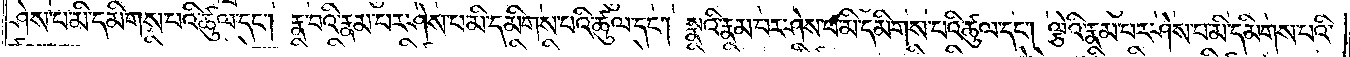ཤེས་པ་མི་དམིགས་པའི་ཚུལ་དང༌། རྣ་བའི་རྣམ་པར་ཤེས་པ་མི་དམིགས་པའི་ཚུལ་དང༌། སྣའི་རྣམ་པར་ཤེས་པ་མི་དམིགས་པའི་ཚུལ་དང༌། ལྕེའི་རྣམ་པར་ཤེས་པ་མི་དམིགས་པའི་
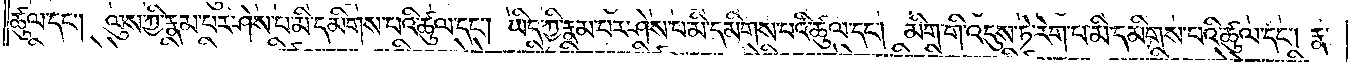ཚུལ་དང༌། ལུས་ཀྱི་རྣམ་པར་ཤེས་པ་མི་དམིགས་པའི་ཚུལ་དང༌། ཡིད་ཀྱི་རྣམ་པར་ཤེས་པ་མི་དམིགས་པའི་ཚུལ་དང༌། མིག་གི་འདུས་ཏེ་རེག་པ་མི་དམིགས་པའི་ཚུལ་དང༌། རྣ་
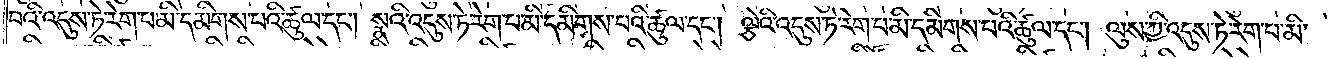བའི་འདུས་ཏེ་རེག་པ་མི་དམིགས་པའི་ཚུལ་དང༌། སྣའི་འདུས་ཏེ་རེག་པ་མི་དམིགས་པའི་ཚུལ་དང༌། ལྕེའི་འདུས་ཏེ་རེག་པ་མི་དམིགས་པའི་ཚུལ་དང༌། ལུས་ཀྱི་འདུས་ཏེ་རེག་པ་མི་
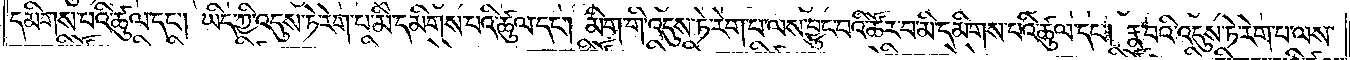དམིགས་པའི་ཚུལ་དང༌། ཡིད་ཀྱི་འདུས་ཏེ་རེག་པ་མི་དམིགས་པའི་ཚུལ་དང༌། མིག་གི་འདུས་ཏེ་རེག་པ་ལས་བྱུང་བའི་ཚོར་བ་མི་དམིགས་པའི་ཚུལ་དང༌། རྣ་བའི་འདུས་ཏེ་རེག་པ་ལས་
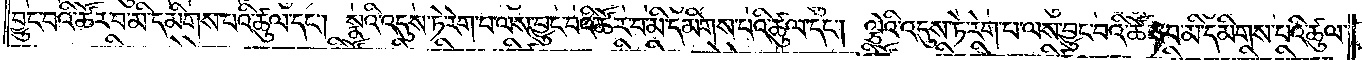བྱུང་བའི་ཚོར་བ་མི་དམིགས་པའི་ཚུལ་དང༌། སྣའི་འདུས་ཏེ་རེག་པ་ལས་བྱུང་བའི་ཚོར་བ་མི་དམིགས་པའི་ཚུལ་དང༌། ལྕེའི་འདུས་ཏེ་རེག་པ་ལས་བྱུང་བའི་ཚོར་བ་མི་དམིགས་པའི་ཚུལ་
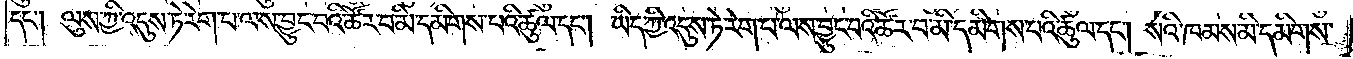དང༌། ལུས་ཀྱི་འདུས་ཏེ་རེག་པ་ལས་བྱུང་བའི་ཚོར་བ་མི་དམིགས་པའི་ཚུལ་དང༌། ཡིད་ཀྱི་འདུས་ཏེ་རེག་པ་ལས་བྱུང་པའི་ཚོར་བ་མི་དམིགས་པའི་ཚུལ་དང༌། སའི་ཁམས་མི་དམིགས་
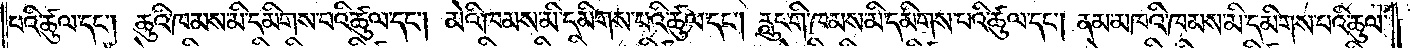པའི་ཚུལ་དང༌། ཆུའི་ཁམས་མི་དམིགས་པའི་ཚུལ་དང༌། མེའི་ཁམས་མི་དམིགས་པའི་ཚུལ་དང༌། རླུང་གི་ཁམས་མི་དམིགས་པའི་ཚུལ་དང༌། ནམ་མཁའི་ཁམས་མི་དམིགས་པའི་ཆུལ་
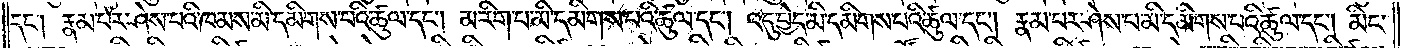དང༌། རྣམ་པར་ཤེས་པའི་ཁམས་མི་དམིགས་པའི་ཚུལ་དང༌། མ་རིག་པ་མི་དམིགས་པའི་ཚུལ་དང༌། འདུ་བྱེད་མི་དམིགས་པའི་ཚུལ་དང༌། རྣམ་པར་ཤེས་པ་མི་དམིགས་པའི་ཚུལ་དང༌། མིང་
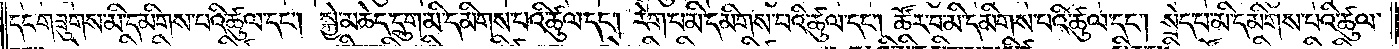དང་གཟུགས་མི་དམིགས་པའི་ཚུལ་དང༌། སྐྱེ་མཆེད་དྲུག་མི་དམིགས་པའི་ཚུལ་དང༌། རེག་པ་མི་དམིགས་པའི་ཚུལ་དང༌། ཚོར་བ་མི་དམིགས་པའི་ཚུལ་དང༌། སྲེད་པ་མི་དམིགས་པའི་ཚུལ་
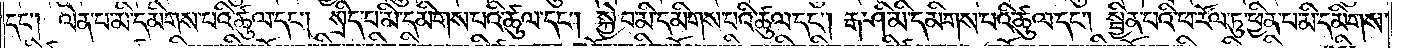དང༌། ལེན་པ་མི་དམིགས་པའི་ཚུལ་དང༌། སྲིད་པ་མི་དམིགས་པའི་ཚུལ་དང༌། སྐྱེ་བ་མི་དམིགས་པའི་ཚུལ་དང༌། རྒ་ཤི་མི་དམིགས་པའི་ཚུལ་དང༌། སྦྱིན་པའི་ཕ་རོལ་ཏུ་ཕྱིན་པ་མི་དམིགས་
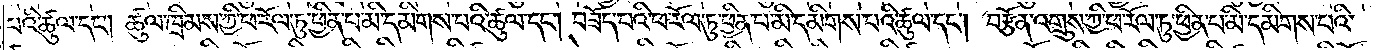པའི་ཚུལ་དང༌། ཚུལ་ཁྲིམས་ཀྱི་ཕ་རོལ་ཏུ་ཕྱིན་པ་མི་དམིགས་པའི་ཚུལ་དང༌། བཟོད་པའི་ཕ་རོལ་ཏུ་ཕྱིན་པ་མི་དམིགས་པའི་ཚུལ་དང༌། བརྩོན་འགྲུས་ཀྱི་ཕ་རོལ་ཏུ་ཕྱིན་པ་མི་དམིགས་པའི་
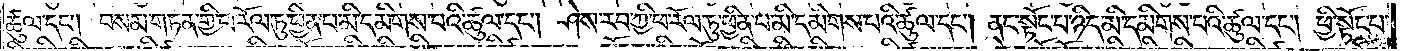ཚུལ་དང༌། བསམ་གཏན་གྱི་ཕ་རོལ་ཏུ་ཕྱིན་པ་མི་དམིགས་པའི་ཚུལ་དང༌། ཤེས་རབ་ཀྱི་ཕ་རོལ་ཏུ་ཕྱིན་པ་མི་དམིགས་པའི་ཚུལ་དང༌། ནང་སྟོང་པ་ཉིད་མི་དམིགས་པའི་ཚུལ་དང༌། ཕྱི་སྟོང་པ་
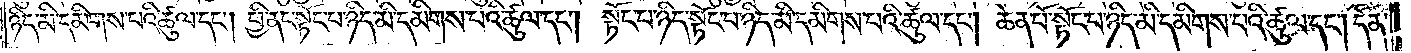ཉིད་མི་དམིགས་པའི་ཚུལ་དང༌། ཕྱི་ནང་སྟོང་པ་ཉིད་མི་དམིགས་པའི་ཚུལ་དང༌། སྟོང་པ་ཉིད་སྟོང་པ་ཉིད་མི་དམིགས་པའི་ཚུལ་དང༌། ཆེན་པོ་སྟོང་པ་ཉིད་མི་དམིགས་པའི་ཚུལ་དང༌། དོན་
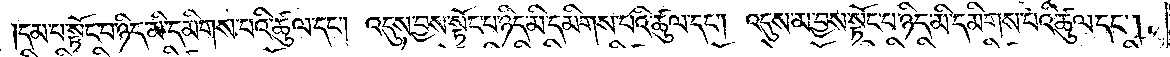དམ་པ་སྟོང་པ་ཉིད་མི་དམིགས་པའི་ཚུལ་དང༌། འདུས་བྱས་སྟོང་པ་ཉིད་མི་དམིགས་པའི་ཚུལ་དང༌། འདུས་མ་བྱས་སྟོང་པ་ཉིད་མི་དམིགས་པའི་ཚུལ་དང༌།
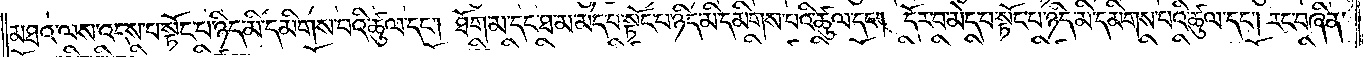མཐའ་ལས་འདས་པ་སྟོང་པ་ཉིད་མི་དམིགས་པའི་ཚུལ་དང༌། ཐོག་མ་དང་ཐ་མ་མེད་པ་སྟོང་པ་ཉིད་མི་དམིགས་པའི་ཚུལ་དང༌། དོར་བ་མེད་པ་སྟོང་པ་ཉིད་མི་དམིགས་པའི་ཚུལ་དང༌། རང་བཞིན་
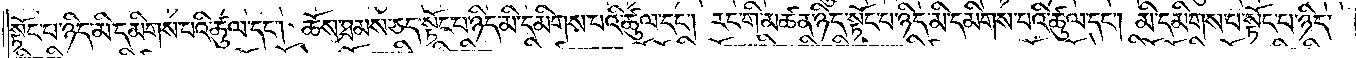སྟོང་པ་ཉིད་མི་དམིགས་པའི་ཚུལ་དང༌། ཆོས་ཐམས་ཅད་སྟོང་པ་ཉིད་མི་དམིགས་པའི་ཚུལ་དང༌། རང་གི་མཚན་ཉིད་སྟོང་པ་ཉིད་མི་དམིགས་པའི་ཚུལ་དང༌། མི་དམིགས་པ་སྟོང་པ་ཉིད་
